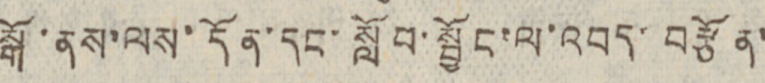སྒོ་ནས་ལས་དོན་དང་སློབ་སྦྱོང་ལ་འབད་བརྩོན་
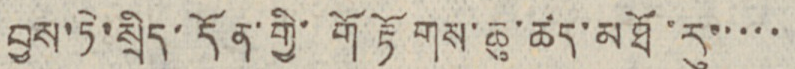བྱས་ཏེ་སྲིད་དོན་གྱི་གོ རྟོགས་ཆུ་ཚད་མཐོ་རུ་་་་་
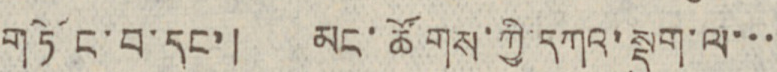གཏོང་བ་དང་། མང་ཚོགས་ཀྱི་དཀའ་སྡུག་ལ་་་
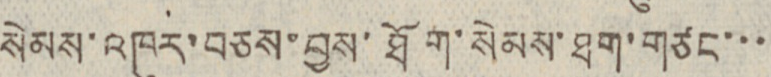སེམས་འཁུར་བཅས་བྱས་ཐོག་སེམས་ཐག་གཙང་་་
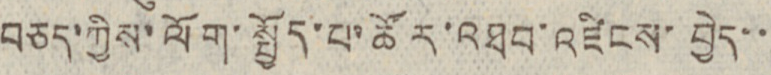བཅད་ཀྱིས་ལོག་སྤྱོད་པ་ཚོར་འཐབ་འཛིངས་བྱེད་་
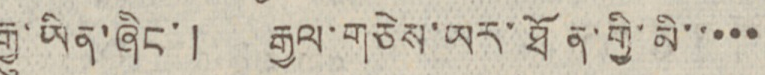རྒྱུ་ཡིན་ཞིང་། རྒྱལ་གཅེས་ཡར་ཐོན་གྱི་མི་་་་་
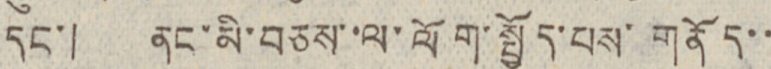དང་། ནང་མི་བཅས་ལ་ལོག་སྤྱོད་པས་གནོད་་
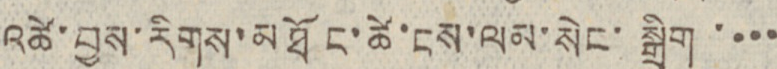འཚེ་བྱས་རིགས་མཐོང་ཚེ་ངས་ལམ་སེང་སྒྲིག་་་་
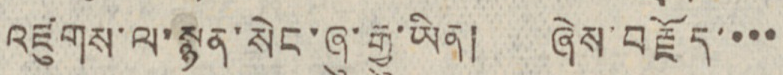འཛུགས་ལ་སྙན་སེང་ཞུ་རྒྱུ་ཡིན། ཞེས་བརྗོད་་་་
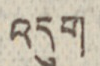འདུག
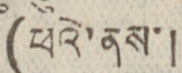(ཕའེ་ནས་།
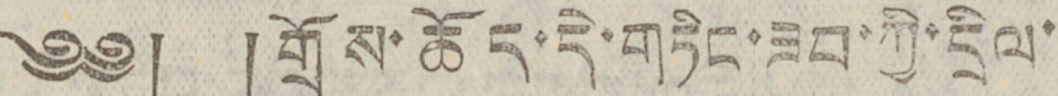༄༅། །གྲོས་ཆོད་དེ་གཏིང་ཟབ་ཀྱི་དྲིལ་
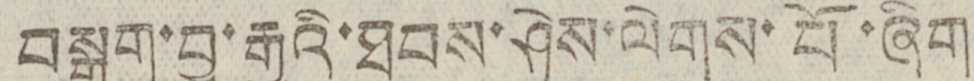བསྒྲག་བྱ་རྒྱུའི་ཐབས་ཤེས་ལེགས་པོ་ཞིག
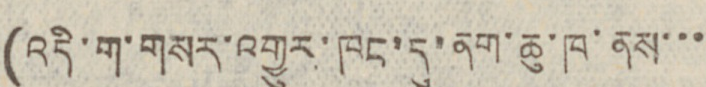(འདི་ག་གསར་འགྱུར་ཁང་དུ་ནག་ཆུ་ཁ་ནས་་་
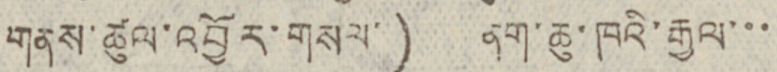གནས་ཚུལ་འབྱོར་གསལ་) ནག་ཆུ་ཁའི་རྒྱལ་་་
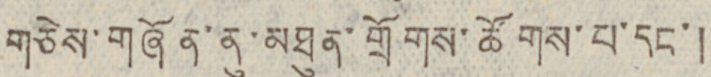གཅེས་གཞོན་ནུ་མཐུན་གྲོགས་ཚོགས་པ་དང་།
